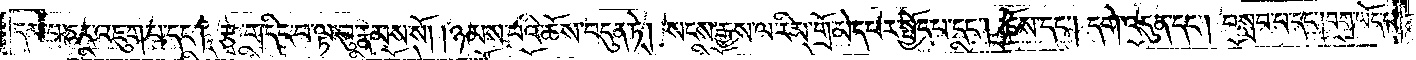དམ་བཅར་འཇུག་པ་དང༌། རྩྭ་གདིང་བ་ལྟ་བུ་རྣམས་སོ། །ཉམས་པའི་ཆོས་བདུན་ཏེ། སངས་རྒྱས་ལ་རིམ་གྲོ་མེད་པར་སྤྱོད་པ་དང༌། ཆོས་དང༌། དགེ་འདུན་དང༌། བསླབ་པ་དང༌། བག་ཡོད་པ་
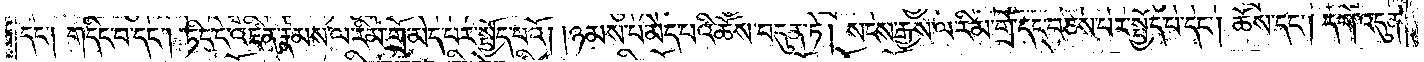དང༌། གདིང་བ་དང༌། ཏིང་ངེ་འཛིན་རྣམས་ལ་རིམ་གྲོ་མེད་པར་སྤྱོད་པའོ། །ཉམས་པ་མེད་པའི་ཆོས་བདུན་ཏེ། སངས་རྒྱས་ལ་རིམ་གྲོ་དང་བཅས་པར་སྤྱོད་པ་དང༌། ཆོས་དང༌། དགེ་འདུན་
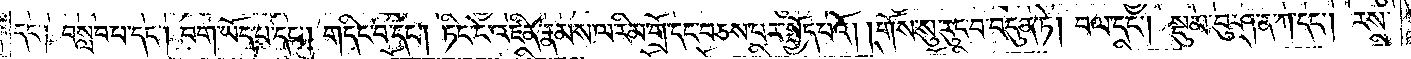དང༌། བསླབ་པ་དང༌། བག་ཡོད་པ་དང༌། གདིང་བ་དང༌། ཏིང་ངེ་འཛིན་རྣམས་ལ་རིམ་གྲོ་དང་བཅས་པར་སྤྱོད་པའོ། །གོས་སུ་རུང་བ་བདུན་ཏེ། བལ་དང༌། སྡུམ་བུ་ཤ་ན་ཀ་དང༌། རས་
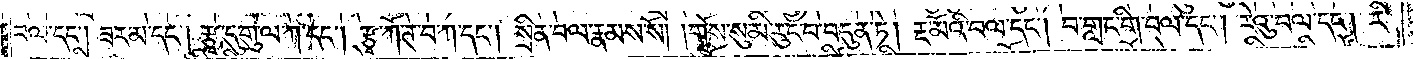བལ་དང༌། ཟར་མ་དང༌། རྩྭ་དུ་གུ་ལ་ཀ་དང༌། རྩྭ་ཀོ་ཊ་བ་ཀ་དང༌། སྲིན་བལ་རྣམས་སོ། །གོས་སུ་མི་རུང་བ་བདུན་ཏེ། རྔ་མོའི་བལ་དང༌། བ་གླང་གི་བལ་དང༌། རེའུ་བལ་དང༌། རི་
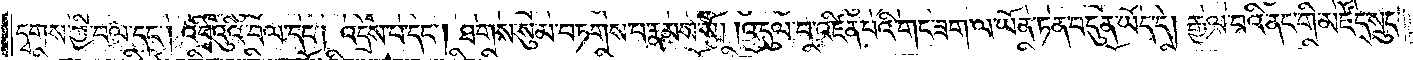དྭགས་ཀྱི་བལ་དང༌། འབྲིའུའི་བལ་དང༌། འདྲེས་པ་དང༌། ཐགས་སུ་མ་བཏགས་པ་རྣམས་སོ། །འདུལ་བ་འཛིན་པའི་གང་ཟག་ལ་ཡོན་ཏན་བདུན་ཡོད་དེ། རྒྱལ་བའི་ནང་གི་མཛོད་སྲུང་
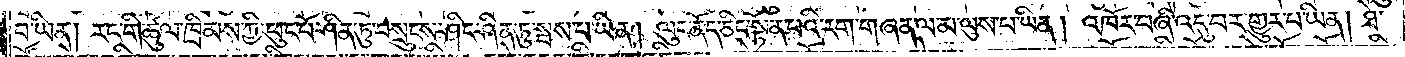བ་ཡིན། རང་གི་ཚུལ་ཁྲིམས་ཀྱི་ཕུང་པོ་ཤིན་ཏུ་བསྲུངས་ཤིང་ཤིན་ཏུ་སྦས་པ་ཡིན། ལུང་ནོད་ཅིང་སྟོན་པའི་རག་གཞན་ལ་མ་ལུས་པ་ཡིན། འཁོར་བཞི་འདུ་བར་གྱུར་བ་ཡིན། ཐེ་
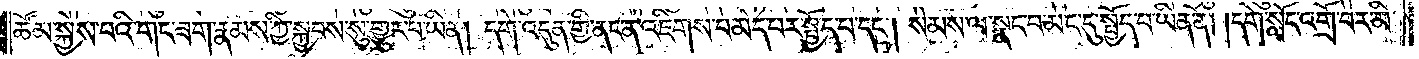ཚོམ་སྐྱེས་པའི་གང་ཟག་རྣམས་ཀྱི་སྐྱབས་སུ་གྱུར་པ་ཡིན། དགེ་འདུན་གྱི་ནང་ན་འཇིགས་པ་མེད་པར་སྤྱོད་པ་དང༌། སེམས་ལ་སྣང་བ་མང་དུ་སྤྱོད་པ་ཡིན་ནོ། །དགེ་སློང་འགྲོ་བར་མི་
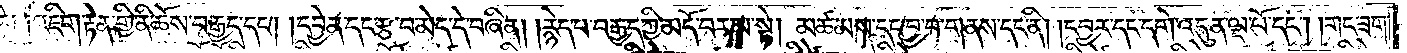ཏེ༑ ༑འཇིག་རྟེན་གྱི་ནི་ཆོས་བརྒྱད་དང༌། །དབྱེན་དང་རྩ་བ་མེད་དེ་བཞིན། །རྙེད་པ་བརྒྱད་ཀྱི་མདོ་བར་མ་སྟེ། མཚམས་དང་བྱ་བ་གནས་དང་ནི། །དབྱར་དང་དགེ་འདུན་ལྔ་པོ་དང༌། །གང་ཟག་
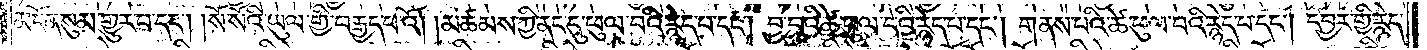མངོན་སུམ་གྱུར་པ་དང༌། །སོ་སོའི་ཡུལ་གྱི་བརྒྱད་པའོ། །མཚམས་ཀྱི་ནང་དུ་ཕུལ་བའི་རྙེད་པ་དང༌། བྱ་བའི་ཚེ་ཕུལ་བའི་རྙེད་པ་དང༌། གནས་པའི་ཚེ་ཕུལ་བའི་རྙེད་པ་དང༌། དབྱར་གྱི་རྙེད་
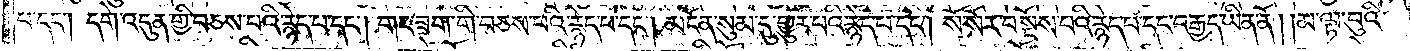པ་དང༌། དགེ་འདུན་གྱི་བཅས་པའི་རྙེད་པ་དང༌། གང་ཟག་གི་བཅས་པའི་རྙེད་པ་དང༌། མངོན་སུམ་དུ་གྱུར་པའི་རྙེད་པ་དང༌། སོ་སོར་བསྔོས་པའི་རྙེད་པ་དང་བརྒྱད་ཡིན་ནོ། །མ་ལྟ་བུའི་
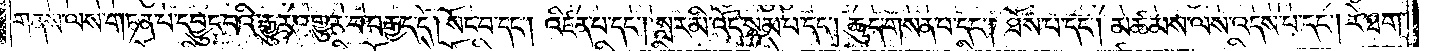གནས་ལས་གཏན་པ་དབྱུང་བའི་རྒྱུར་འགྱུར་བ་བརྒྱད་དེ། སོང་བ་དང༌། འཛིན་པ་དང༌། སླར་མི་འོང་སྙམ་པ་དང༌། ཆུད་གསན་པ་དང༌། ཐོས་པ་དང༌། མཚམས་ལས་འདས་པ་དང༌། རེ་ཐག་
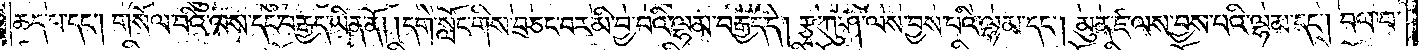ཆད་པ་དང༌། གསོལ་བའི་ལས་དང་བརྒྱད་ཡིན་ནོ། །དགེ་སློང་གིས་བཅང་བར་མི་བྱ་བའི་ལྷམ་བརྒྱད་དེ། རྩྭ་ཀུ་ཤ་ལས་བྱས་པའི་ལྷམ་དང༌། མུན་ཛ་ལས་བྱས་པའི་ལྷམ་དང༌། བལ་བ་
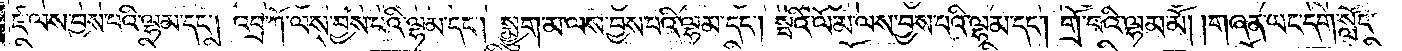ཛ་ལས་བྱས་པའི་ལྷམ་དང༌། འབྲ་ཀོ་ལས་བྱས་པའི་ལྷམ་དང༌། སྨྱུག་མ་ལས་བྱས་པའི་ལྷམ་དང༌། སྦའི་ལོ་མ་ལས་བྱས་པའི་ལྷམ་དང༌། གྲོ་བའི་ལྷམ་མོ། །གཞན་ཡང་དགེ་སློང་
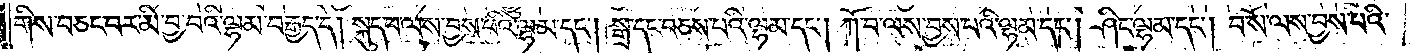གིས་བཅང་བར་མི་བྱ་བའི་ལྷམ་བརྒྱད་དེ། སྐུད་པ་ལས་བྱས་པའི་ལྷམ་དང༌། སྒྲ་དང་བཅས་པའི་ལྷམ་དང༌། ཀོ་བ་ལས་བྱས་པའི་ལྷམ་དང༌། ཤིང་ལྷམ་དང༌། བ་སོ་ལས་བྱས་པའི་
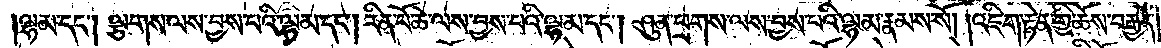ལྷམ་དང༌། ལྕགས་ལས་བྱས་པའི་ལྷམ་དང༌། རིན་པོ་ཆེ་ལས་བྱས་པའི་ལྷམ་དང༌། ཤུན་ཕྲགས་ལས་བྱས་པའི་ལྷམ་རྣམས་སོ། །འཇིག་རྟེན་གྱི་ཆོས་བརྒྱད་
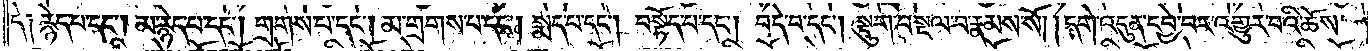དེ༑ རྙེད་པ་དང༌། མ་རྙེད་པ་དང༌། གྲགས་པ་དང༌། མ་གྲགས་པ་དང༌། སྨད་པ་དང༌། བསྟོད་པ་དང༌། བདེ་བ་དང༌། སྡུག་བསྔལ་བ་རྣམས་སོ། །དགེ་འདུན་དབྱེ་བར་འགྱུར་བའི་ཆོས་
